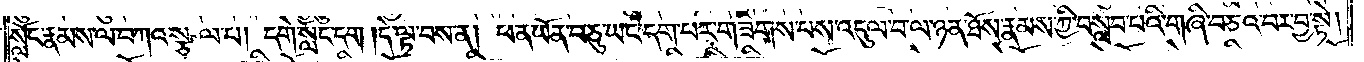སློང་རྣམས་ལ་བཀའ་སྩལ་པ། དགེ་སློང་དག །དེ་ལྟ་བས་ན། ཕན་ཡོན་བཅུ་ཡང་དག་པར་གཟིགས་པས་འདུལ་བ་ལ་ཉན་ཐོས་རྣམས་ཀྱི་བསླབ་པའི་གཞི་བཅའ་བར་བྱ་སྟེ།
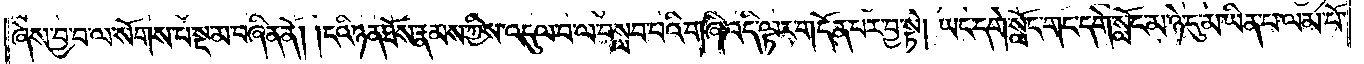ཞེས་བྱ་བ་ལ་སོགས་པ་སྔ་མ་བཞིན་ནོ། །ངའི་ཉན་ཐོས་རྣམས་ཀྱིས་འདུལ་བ་ལ་བསླབ་པའི་གཞི་འདི་ལྟར་གདོན་པར་བྱ་སྟེ། ཡང་དགེ་སློང་གང་དགེ་སློང་མ་ཉེ་དུ་མ་ཡིན་པ་ལམ་པོ་
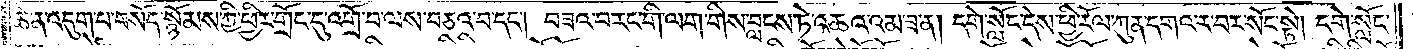ཆེ་ན་འདུག་པས་བསོད་སྙོམས་ཀྱི་ཕྱིར་གྲོང་དུ་འགྲོ་བ་ལས་བཅའ་བ་དང༌། བཟའ་བ་རང་གི་ལག་གིས་བླངས་ཏེ་འཆའ་འམ་ཟ་ན། དགེ་སློང་དེས་ཕྱི་རོལ་ཀུན་དགའ་ར་བར་སོང་སྟེ། དགེ་སློང་
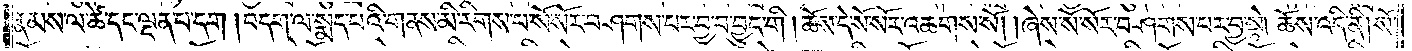རྣམས་ལ་ཚེ་དང་ལྡན་པ་དག །བདག་ལ་སྨད་པའི་གནས་མི་རིགས་པ་སོ་སོར་བཤགས་པར་བྱ་བ་བྱུང་གི །ཆོས་དེ་སོ་སོར་འཆགས་སོ། །ཞེས་སོ་སོར་བཤགས་པར་བྱ་སྟེ། ཆོས་འདི་ནི། སོ་
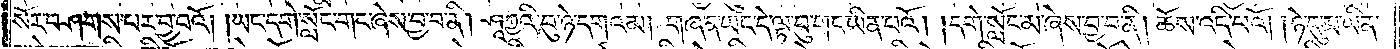སོར་བཤགས་པར་བྱ་བའོ། །ཡང་དགེ་སློང་གང་ཞེས་བྱ་བ་ནི། ཤཱཀྱའི་བུ་ཉེ་དགའམ། གཞན་ཡང་དེ་ལྟ་བུ་གང་ཡིན་པའོ། །དགེ་སློང་མ་ཞེས་བྱ་བ་ནི། ཆོས་འདི་པའོ། །ཉེ་དུ་མ་ཡིན་
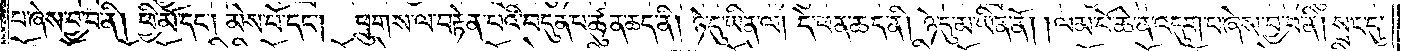པ་ཞེས་བྱ་བ་ནི། ཕྱི་མོ་དང༌། མེས་པོ་དང༌། ཕྲུགས་ལ་བརྟེན་པའི་བདུན་པ་ཚུན་ཆད་ནི། ཉེ་དུ་ཡིན་ལ། དེ་ཕན་ཆད་ནི། ཉེ་དུ་མ་ཡིན་ནོ། །ལམ་པོ་ཆེ་ན་འདུག་པ་ཞེས་བྱ་བ་ནི། སྲང་དུ་
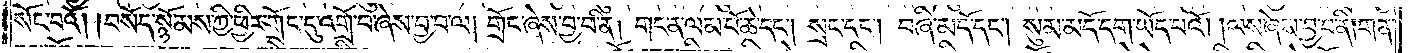སོང་བའོ། །བསོད་སྙོམས་ཀྱི་ཕྱིར་གྲོང་དུ་འགྲོ་བ་ཞེས་བྱ་བ་ལ། གྲོང་ཞེས་བྱ་བ་ནི། གང་ན་ལམ་པོ་ཆེ་དང༌། སྲང་དང༌། བཞི་མདོ་དང༌། སུམ་མདོ་དག་ཡོད་པའོ། །ལས་ཞེས་བྱ་བ་ནི། གན་
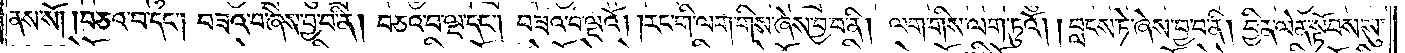ནས་སོ། །བཅའ་བ་དང༌། བཟའ་བ་ཞེས་བྱ་བ་ནི། བཅའ་བ་ལྔ་དང༌། བཟའ་བ་ལྔའོ། །རང་གི་ལག་གིས་ཞེས་བྱ་བ་ནི། ལག་གིས་ལག་ཏུའོ། །བླངས་ཏེ་ཞེས་བྱ་བ་ནི། བྱིན་ལེན་སྟོབས་སུ་
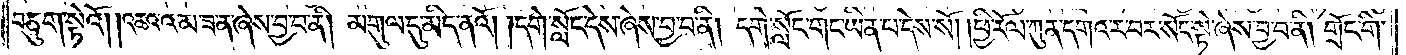བཅུག་སྟེའོ། །འཆའ་འམ་ཟ་ན་ཞེས་བྱ་བ་ནི། མགུལ་དུ་མིད་ནའོ། །དགེ་སློང་དེས་ཞེས་བྱ་བ་ནི། དགེ་སློང་གང་ཡིན་པ་དེས་སོ། །ཕྱི་རོལ་ཀུན་དགའ་ར་བར་སོང་སྟེ་ཞེས་བྱ་བ་ནི། གྲོང་གི་
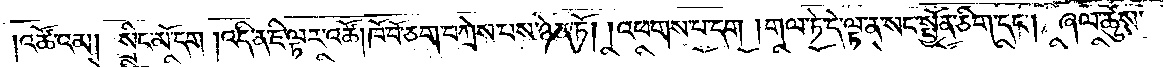འཚོ་འམ། སྲིང་མོ་དག །འདི་ན་ཇི་ལྟར་འཚོ། ཁོ་བོ་ཅག་བཀྲེས་པས་ཉེན་ཏོ། །འཕགས་པ་དག །གལ་ཏེ་དེ་ལྟ་ནས་སང་སྤྱོན་ཅིག་དང༌། ཞལ་ཚུས་
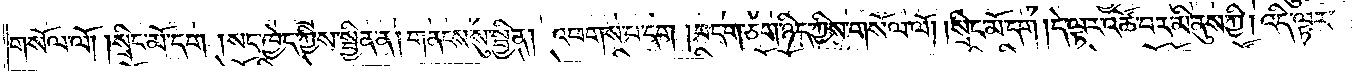གསོལ་ལོ། །སྲིང་མོ་དག །སང་ཁྱེད་ཀྱིས་སྦྱིན་ན། གནངས་སུ་སྦྱིན། འཕགས་པ་དག །བདག་ཅག་ཉིད་ཀྱིས་གསོལ་ལོ། །སྲིང་མོ་དག །དེ་ལྟར་འཚོ་བར་མི་ནུས་ཀྱི། འདི་ལྟར་
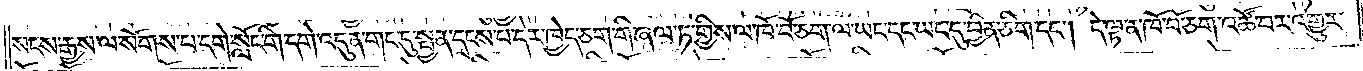སངས་རྒྱས་ལ་སོགས་པ་དགེ་སློང་གི་དགེ་འདུན་གང་དུ་སྤྱན་དྲངས་པ་དེར་ཁྱེད་ཅག་གི་ཞལ་ཏ་གྱིས་ལ་ཁོ་བོ་ཅག་ལ་ཡང་དང་ཡང་དུ་བྱིན་ཅིག་དང༌། དེ་ལྟ་ན་ཁོ་བོ་ཅག་འཚོ་བར་འགྱུར་
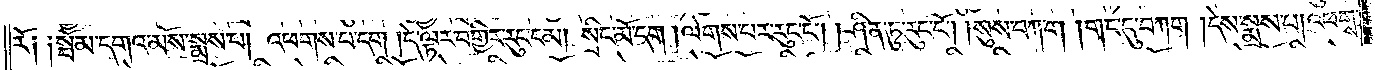རོ། །སྦོམ་དགའ་མོས་སྨྲས་པ། འཕགས་པ་དག །དེ་ལྟར་བགྱིར་རུང་ངམ། སྲིང་མོ་དག །ལེགས་པར་རུང་ངོ༌། །ཤིན་ཏུ་རུང་ངོ༌། །སུས་བཀང༌། གང་དུ་བཀག །དེས་སྨྲས་པ། འཕགས་
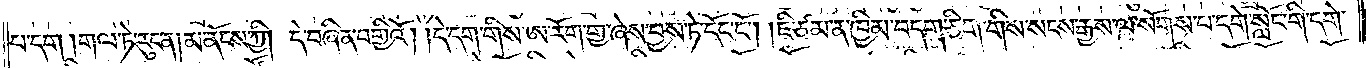པ་དག །གལ་ཏེ་རུང་ན། མ་ནོངས་ཀྱི། དེ་བཞིན་བགྱིའོ། །དེ་དག་གིས་ཨ་རོག་གྱ་ཞེས་བྱས་ཏེ་དོང་ངོ༌། །ཇི་ཙམ་ན་ཁྱིམ་བདག་ཅིག་གིས་སངས་རྒྱས་ལ་སོགས་པ་དགེ་སློང་གི་དགེ་
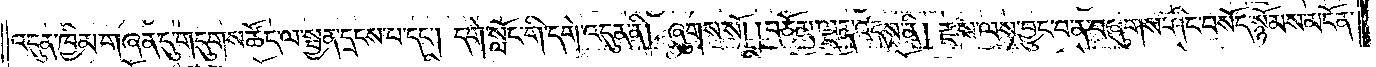འདུན་ཁྱིམ་གཞན་དུ་གདུགས་ཚོད་ལ་སྤྱན་དྲངས་པ་དང༌། དགེ་སློང་གི་དགེ་འདུན་ནི། ཞུགས་སོ། །བཅོམ་ལྡན་འདས་ནི། རྫས་ལས་བྱུང་བ་ན་བཞུགས་ཤིང་བསོད་སྙོམས་མངོན་
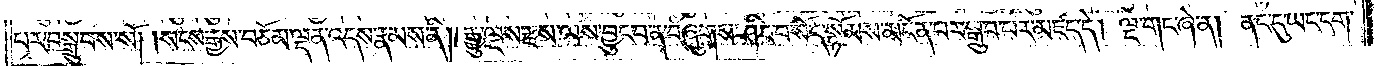པར་བསྒྲུབས་སོ། །སངས་རྒྱས་བཅོམ་ལྡན་འདས་རྣམས་ནི། རྒྱུ་ལྔས་རྫས་ལས་བྱུང་བ་ན་བཞུགས་ཤིང་བསོད་སྙོམས་མངོན་པར་སྒྲུབ་པར་མཛད་དེ། ལྔ་གང་ཞེ་ན། ནང་དུ་ཡང་དག་
